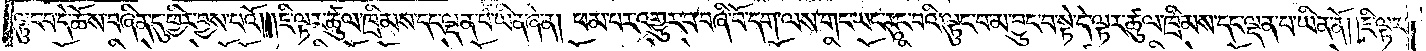ལྟུང་བ་དེ་ཆོས་བཞིན་དུ་ཕྱིར་བྱས་པའོ། །ཇི་ལྟར་ཚུལ་ཁྲིམས་དང་ལྡན་པ་ཡིན་ཞེ་ན། ཕམ་པར་འགྱུར་བ་བཞི་བོ་དག་ལས་གང་ཡང་རུང་བའི་ལྟུང་བ་མ་བྱུང་བ་སྟེ་དེ་ལྟར་ཚུལ་ཁྲིམས་དང་ལྡན་པ་ཡིན་ནོ། །ཇི་ལྟར་
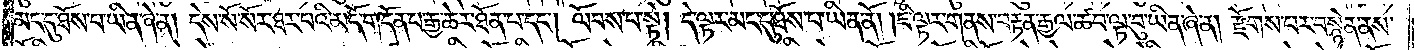མང་དུ་ཐོས་པ་ཡིན་ཞེ་ན། དེས་སོ་སོར་ཐར་པའི་མདོ་གདོན་པ་རྒྱ་ཆེར་ཐོན་པ་དང༌། ལོབས་པ་སྟེ། དེ་ལྟར་མང་དུ་ཐོས་པ་ཡིན་ནོ། །ཇི་ལྟར་གནས་བརྟན་རྒྱལ་ཚབ་ལྟ་བུ་ཡིན་ཞེ་ན། རྫོགས་པར་བསྙེན་ནས་
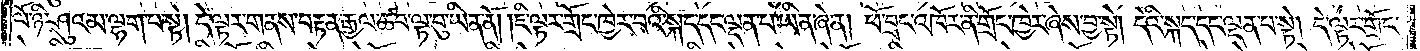ལོ་ཉི་ཤུའམ་ལྷག་པ་སྟེ། དེ་ལྟར་གནས་བརྟན་རྒྱལ་ཚབ་ལྟ་བུ་ཡིན་ནོ། །ཇི་ལྟར་གྲོང་ཁྱེར་བའི་སྐད་དང་ལྡན་པ་ཡིན་ཞེ་ན། ཕོ་བྲང་འཁོར་ནི་གྲོང་ཁྱེར་ཞེས་བྱ་སྟེ། དེའི་སྐད་དང་ལྡན་པ་སྟེ། དེ་ལྟར་གྲོང་
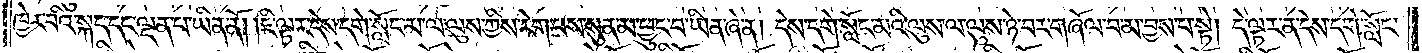ཁྱེར་བའི་སྐད་དང་ལྡན་པ་ཡིན་ནོ། །ཇི་ལྟར་དེས་དགེ་སློང་མ་ལ་ལུས་ཀྱིས་རེག་པས་སུན་མ་ཕྱུང་བ་ཡིན་ཞེ་ན། དེས་དགེ་སློང་མའི་ལུས་ལ་ལུས་ཉེ་བར་གཞོལ་བ་མ་བྱས་པ་སྟེ། དེ་ལྟར་ན་དེས་དགེ་སློང་
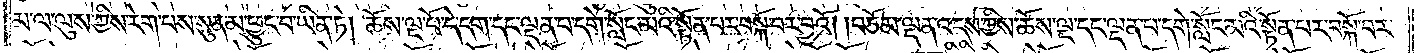མ་ལ་ལུས་ཀྱིས་རེག་པས་སུན་མ་ཕྱུང་བ་ཡིན་ཏེ། ཆོས་ལྔ་པོ་དེ་དག་དང་ལྡན་པ་དགེ་སློང་མའི་སྟོན་པར་བསྐོ་བར་བྱའོ། །བཅོམ་ལྡན་འདས་ཀྱིས་ཆོས་ལྔ་དང་ལྡན་པ་དགེ་སློང་མའི་སྟོན་པར་བསྐོ་བར་
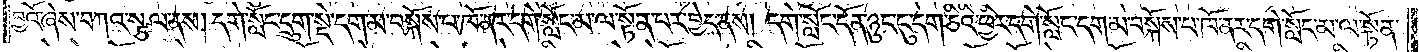བྱའོ་ཞེས་བཀའ་སྩལ་ནས། དགེ་སློང་དྲུག་སྡེ་དག་མ་བསྐོས་པ་ཁོ་ནར་དགེ་སློང་མ་ལ་སྟོན་པར་བྱེད་ནས། དགེ་སློང་དོན་ཉུང་ངུ་དག་ཅིའི་ཕྱིར་དགེ་སློང་དག་མ་བསྐོས་པ་ཁོ་ནར་དགེ་སློང་མ་ལ་སྟོན་
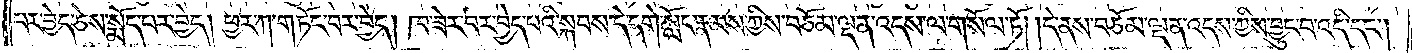པར་བྱེད་ཅེས་སྨོད་པར་བྱེད། ཕྱར་ཀ་གཏོང་བར་བྱེད། ཁ་ཟེར་བར་བྱེད་པའི་སྐབས་དེ་དགེ་སློང་རྣམས་ཀྱིས་བཅོམ་ལྡན་འདས་ལ་གསོལ་ཏོ། །དེ་ནས་བཅོམ་ལྡན་འདས་ཀྱིས་བྱུང་བ་འདི་དང༌།
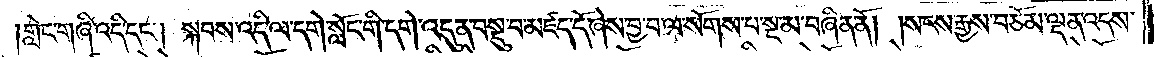གླེང་གཞི་འདི་དང༌། སྐབས་འདི་ལ་དགེ་སློང་གི་དགེ་འདུན་བསྡུ་བ་མཛད་དོ་ཞེས་བྱ་བ་ལ་སོགས་པ་སྔ་མ་བཞིན་ནོ། །སངས་རྒྱས་བཅོམ་ལྡན་འདས་
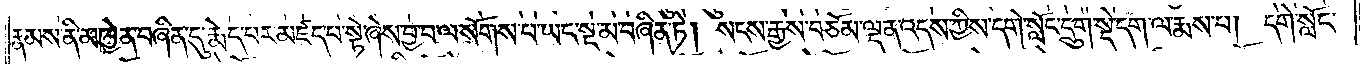རྣམས་ནི་མཁྱེན་བཞིན་དུ་རྨེད་པར་མཛད་པ་སྟེ་ཞེས་བྱ་བ་ལ་སོགས་པ་ཡང་སྔ་མ་བཞིན་ཏེ། སངས་རྒྱས་བཅོམ་ལྡན་འདས་ཀྱིས་དགེ་སློང་དྲུག་སྡེ་དག་ལ་རྨས་པ། དགེ་སློང་
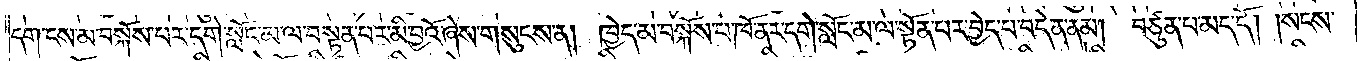དག་ངས་མ་བསྐོས་པར་དགེ་སློང་མ་ལ་བསྟན་པར་མི་བྱའོ་ཞེས་གསུངས་ན། ཁྱེད་མ་བསྐོས་པ་ཁོ་ནར་དགེ་སློང་མ་ལ་སྟོན་པར་བྱེད་པ་བདེན་ནམ། བཙུན་པ་མད་དོ། །སངས་
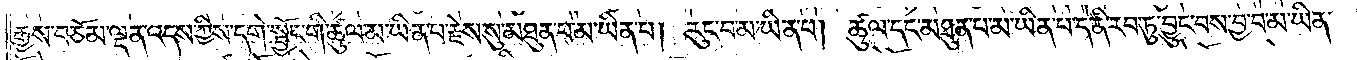རྒྱས་བཅོམ་ལྡན་འདས་ཀྱིས་དགེ་སྦྱོང་གི་ཚུལ་མ་ཡིན་པ་རྗེས་སུ་མཐུན་པ་མ་ཡིན་པ། རུང་བ་མ་ཡིན་པ། ཚུལ་དང་མཐུན་པ་མ་ཡིན་པ་དེ་ནི་རབ་ཏུ་བྱུང་བས་བྱ་བ་མ་ཡིན་
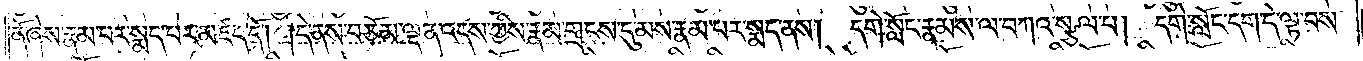ནོ་ཞེས་རྣམ་པར་སྨད་པར་མཛད་དོ། །དེ་ནས་བཅོམ་ལྡན་འདས་ཀྱིས་རྣམ་གྲངས་དུ་མས་རྣམ་པར་སྨད་ནས། དགེ་སློང་རྣམས་ལ་བཀའ་སྩལ་པ། དགེ་སློང་དག་དེ་ལྟ་བས་
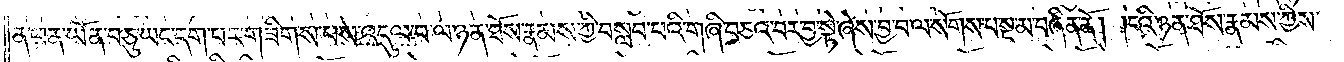ན་ཕན་ཡོན་བཅུ་ཡང་དག་པར་གཟིགས་པས་འདུལ་བ་ལ་ཉན་ཐོས་རྣམས་ཀྱི་བསླབ་པའི་གཞི་བཅའ་བར་བྱ་སྟེ་ཞེས་བྱ་བ་ལ་སོགས་པ་སྔ་མ་བཞིན་ནོ། །ངའི་ཉན་ཐོས་རྣམས་ཀྱིས་
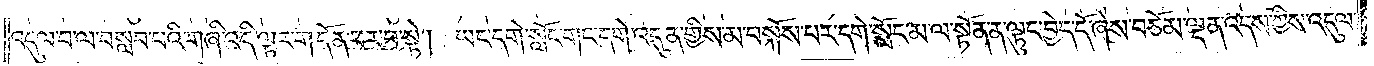འདུལ་བ་ལ་བསླབ་པའི་གཞི་འདི་ལྟར་གདོན་པར་བྱ་སྟེ། ཡང་དགེ་སློང་གང་དགེ་འདུན་གྱིས་མ་བསྐོས་པར་དགེ་སློང་མ་ལ་སྟོན་ན་ལྟུང་བྱེད་དོ་ཞེས་བཅོམ་ལྡན་འདས་ཀྱིས་འདུལ་
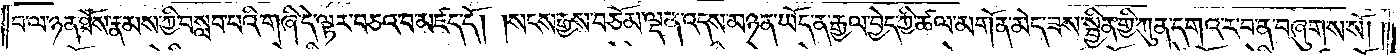བ་ལ་ཉན་ཐོས་རྣམས་ཀྱི་བསླབ་པའི་གཞི་དེ་ལྟར་བཅའ་བ་མཛད་དོ། །སངས་རྒྱས་བཅོམ་ལྡན་འདས་མཉན་ཡོད་ན་རྒྱལ་བྱེད་ཀྱི་ཚལ་མགོན་མེད་ཟས་སྦྱིན་གྱི་ཀུན་དགའ་ར་བ་ན་བཞུགས་སོ། །
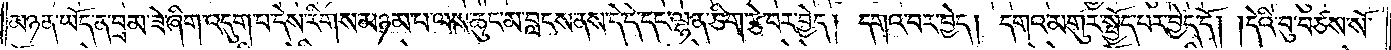མཉན་ཡོད་ན་བྲམ་ཟེ་ཞིག་འདུག་པ་དེས་རིགས་མཉམ་པ་ལས་ཆུང་མ་བླངས་ནས་དེ་དེ་དང་ལྷན་ཅིག་རྩེ་བར་བྱེད། དགའ་བར་བྱེད། དགའ་མགུར་སྤྱོད་པར་བྱེད་དོ། །དེའི་བུ་བཙས་སོ་
